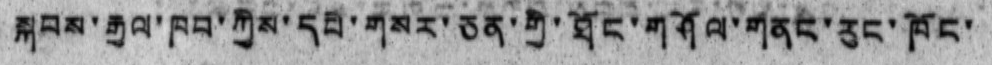སྐབས་རྒྱལ་ཁབ་ཀྱིས་དཔེ་གསར་ཅན་གྱི་ཐོང་གཤོལ་གནང་རུང་ཁོང་
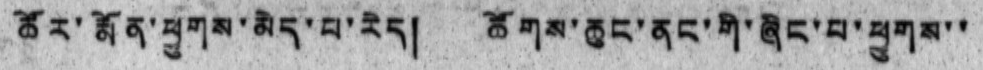ཚོར་རྨོན་ཕྱུགས་མེད་པ་རེད། ཚོགས་ཆུང་ནང་གི་ཞིང་པ་ཕྱུགས་་
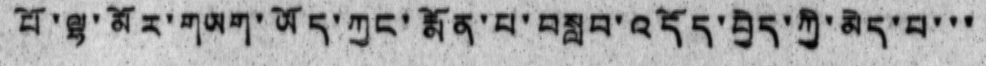པོ་ལྷ་མོར་གཡག་ཡོད་ཀྱང་རྨོན་པ་བསླབ་འདོད་བྱེད་ཀྱི་མེད་པ་་་
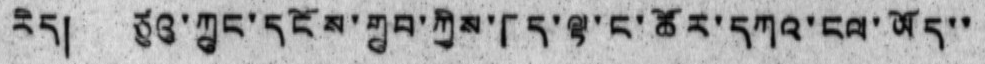རེད། ཙུའུ་ཀྲུང་དངོས་གྲུབ་ཀྱིས་「ད་ལྟ་ང་ཚོར་དཀའ་ངལ་ཡོད་་
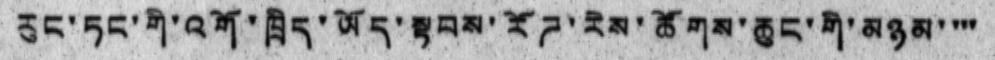རུང་ཏང་གི་འགོ་ཁྲིད་ཡོད་སྟབས་རོཌ་རེས་ཚོགས་ཆུང་གི་མཉམ་་་་
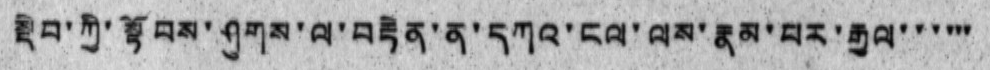སྡེབ་ཀྱི་སྟོབས་ཤུགས་ལ་བརྟེན་ན་དཀའ་ངལ་ལས་རྣམ་པར་རྒྱལ་་་་་་
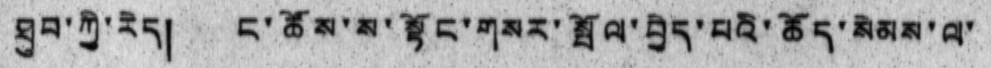ཐུབ་ཀྱི་རེད། ང་ཚོས་ས་སྟོང་གསར་སྦོལ་བྱེད་པའི་ཆོད་སེམས་ལ་
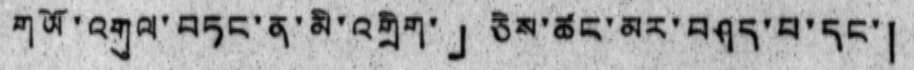གཡོ་འགུལ་བཏང་ན་མི་འགྲིག་」ཅེས་ཚང་མར་བཤད་པ་དང་།
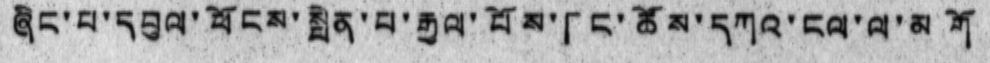ཞིང་པ་དབུལ་ཕོངས་སྤེན་པ་རྒྱལ་པོས་「ང་ཚོས་དཀའ་ངལ་ལ་མགོ
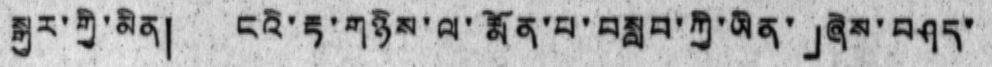སྒྱུར་གྱི་མིན། ངའི་རྟ་གཉིས་ལ་རྨོན་པ་བསླབ་ཀྱི་ཡིན་」ཞེས་བཤད་
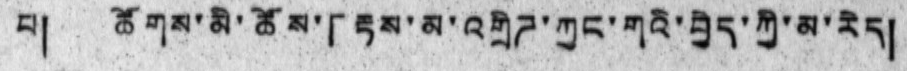པ། ཚོགས་མི་ཚོས་「རྟས་མ་འགྲིཌ་ཀྱང་གའི་བྱེད་ཀྱི་མ་རེད།
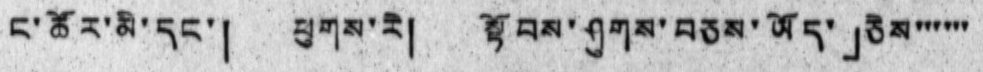ང་ཚོས་མི་དང་། ཕུགས་རི། སྟོབས་ཤུགས་བཅས་ཡོད་」ཅེས་་་་་་
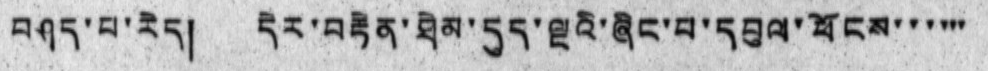བཤད་པ་རེད། དེར་བརྟེན་ཐེམ་དུད་ལྔའི་ཞིང་པ་དབུལ་ཕོངས་་་་་་
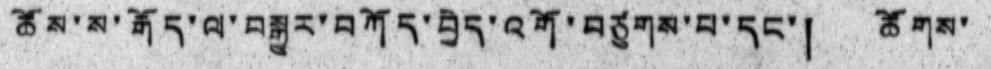ཚོས་ས་རྒོད་ལ་བསྒྱུར་བཀོད་བྱེད་འགོ་བཙུགས་པ་དང་། ཚོགས་
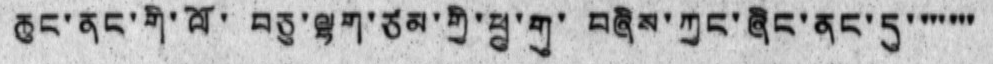ཆུང་ནང་གི་ལོ་ བཅུ་ལྷག་ཙམ་གྱི་ཕྲུ་གུ་  བཞིས་ཀྱང་ཞིང་ནང་དུ་་་་་་་
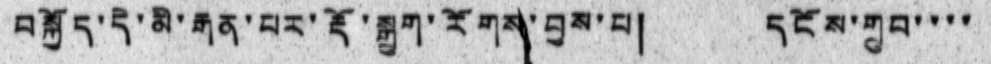བསྐྱོད་དེ་མི་རྒན་པར་རྡོ་སྒྲུག་རོགས་བྱས་པ། དངོས་གྲུབ་་་་
